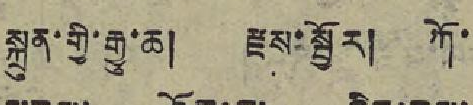སྐྲུན་གྱི་རྒྱུ་ཆ། རྫས་སྦྱོར། ཀོ
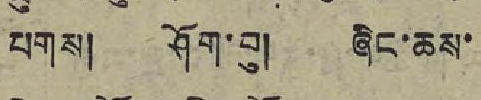པགས། ཤོག་བུ། ཞིང་ཆས་
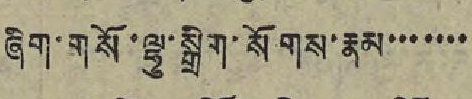ཞིག་གསོ་ལྷུ་སྒྲིག་སོགས་རྣམ་་་་་་
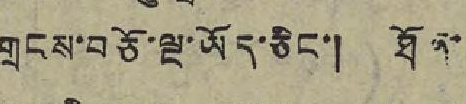གྲངས་བཅོ་ལྔ་ཡོད་ཅིང་། ཐོན་
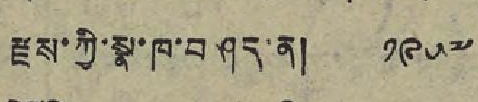རྫས་ཀྱི་སྣ་ཁ་བཤད་ན། ༡༩༥༧
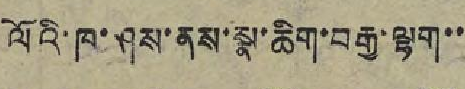ལོའི་ཁ་ཤས་ནས་སྣ་ཆིག་བརྒྱ་ལྷག་
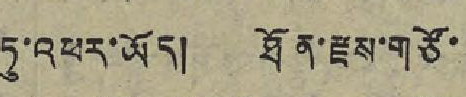ཏུ་འཕར་ཡོད། ཐོན་རྫས་གཙོ་
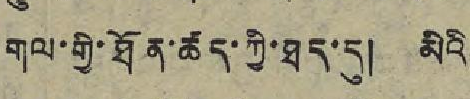གལ་གྱི་ཐོན་ཚད་ཀྱི་ཐད་དུ། མིའི་
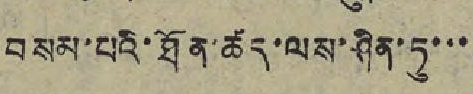བསམ་པའི་ཐོན་ཚད་ལས་ཤིན་ཏུ་་་
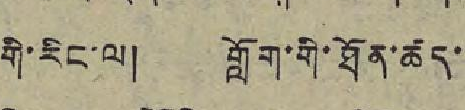གི་རིང་ལ། གློག་གི་ཐོན་ཚད་
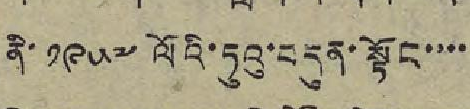ནི་ ༡༩༥༧ ལོའི་ཏུའུ་བདུན་སྟོང་་་་
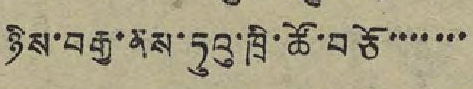ཉིས་བརྒྱ་ནས་ཏུའུ་ཁྲི་ཚོ་བཅོ་་་་་་་
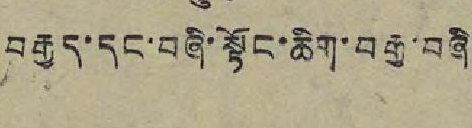བརྒྱད་དང་བཞི་སྟོང་ཆིག་བརྒྱ་བཞི
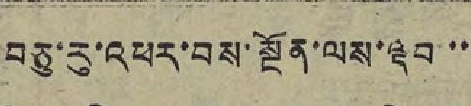བཅུ་རུ་འཕར་བས་སྔོན་ལས་ལྡབ་་
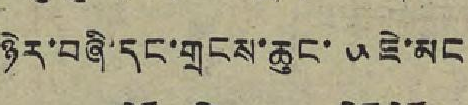ཉེར་བཞི་དང་གྲངས་ཆུང་ ༥ ཇེ་མང
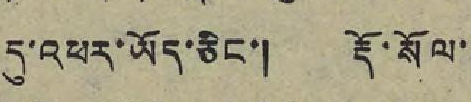དུ་འཕར་ཡོད་ཅིང་། རྡོ་སོལ
